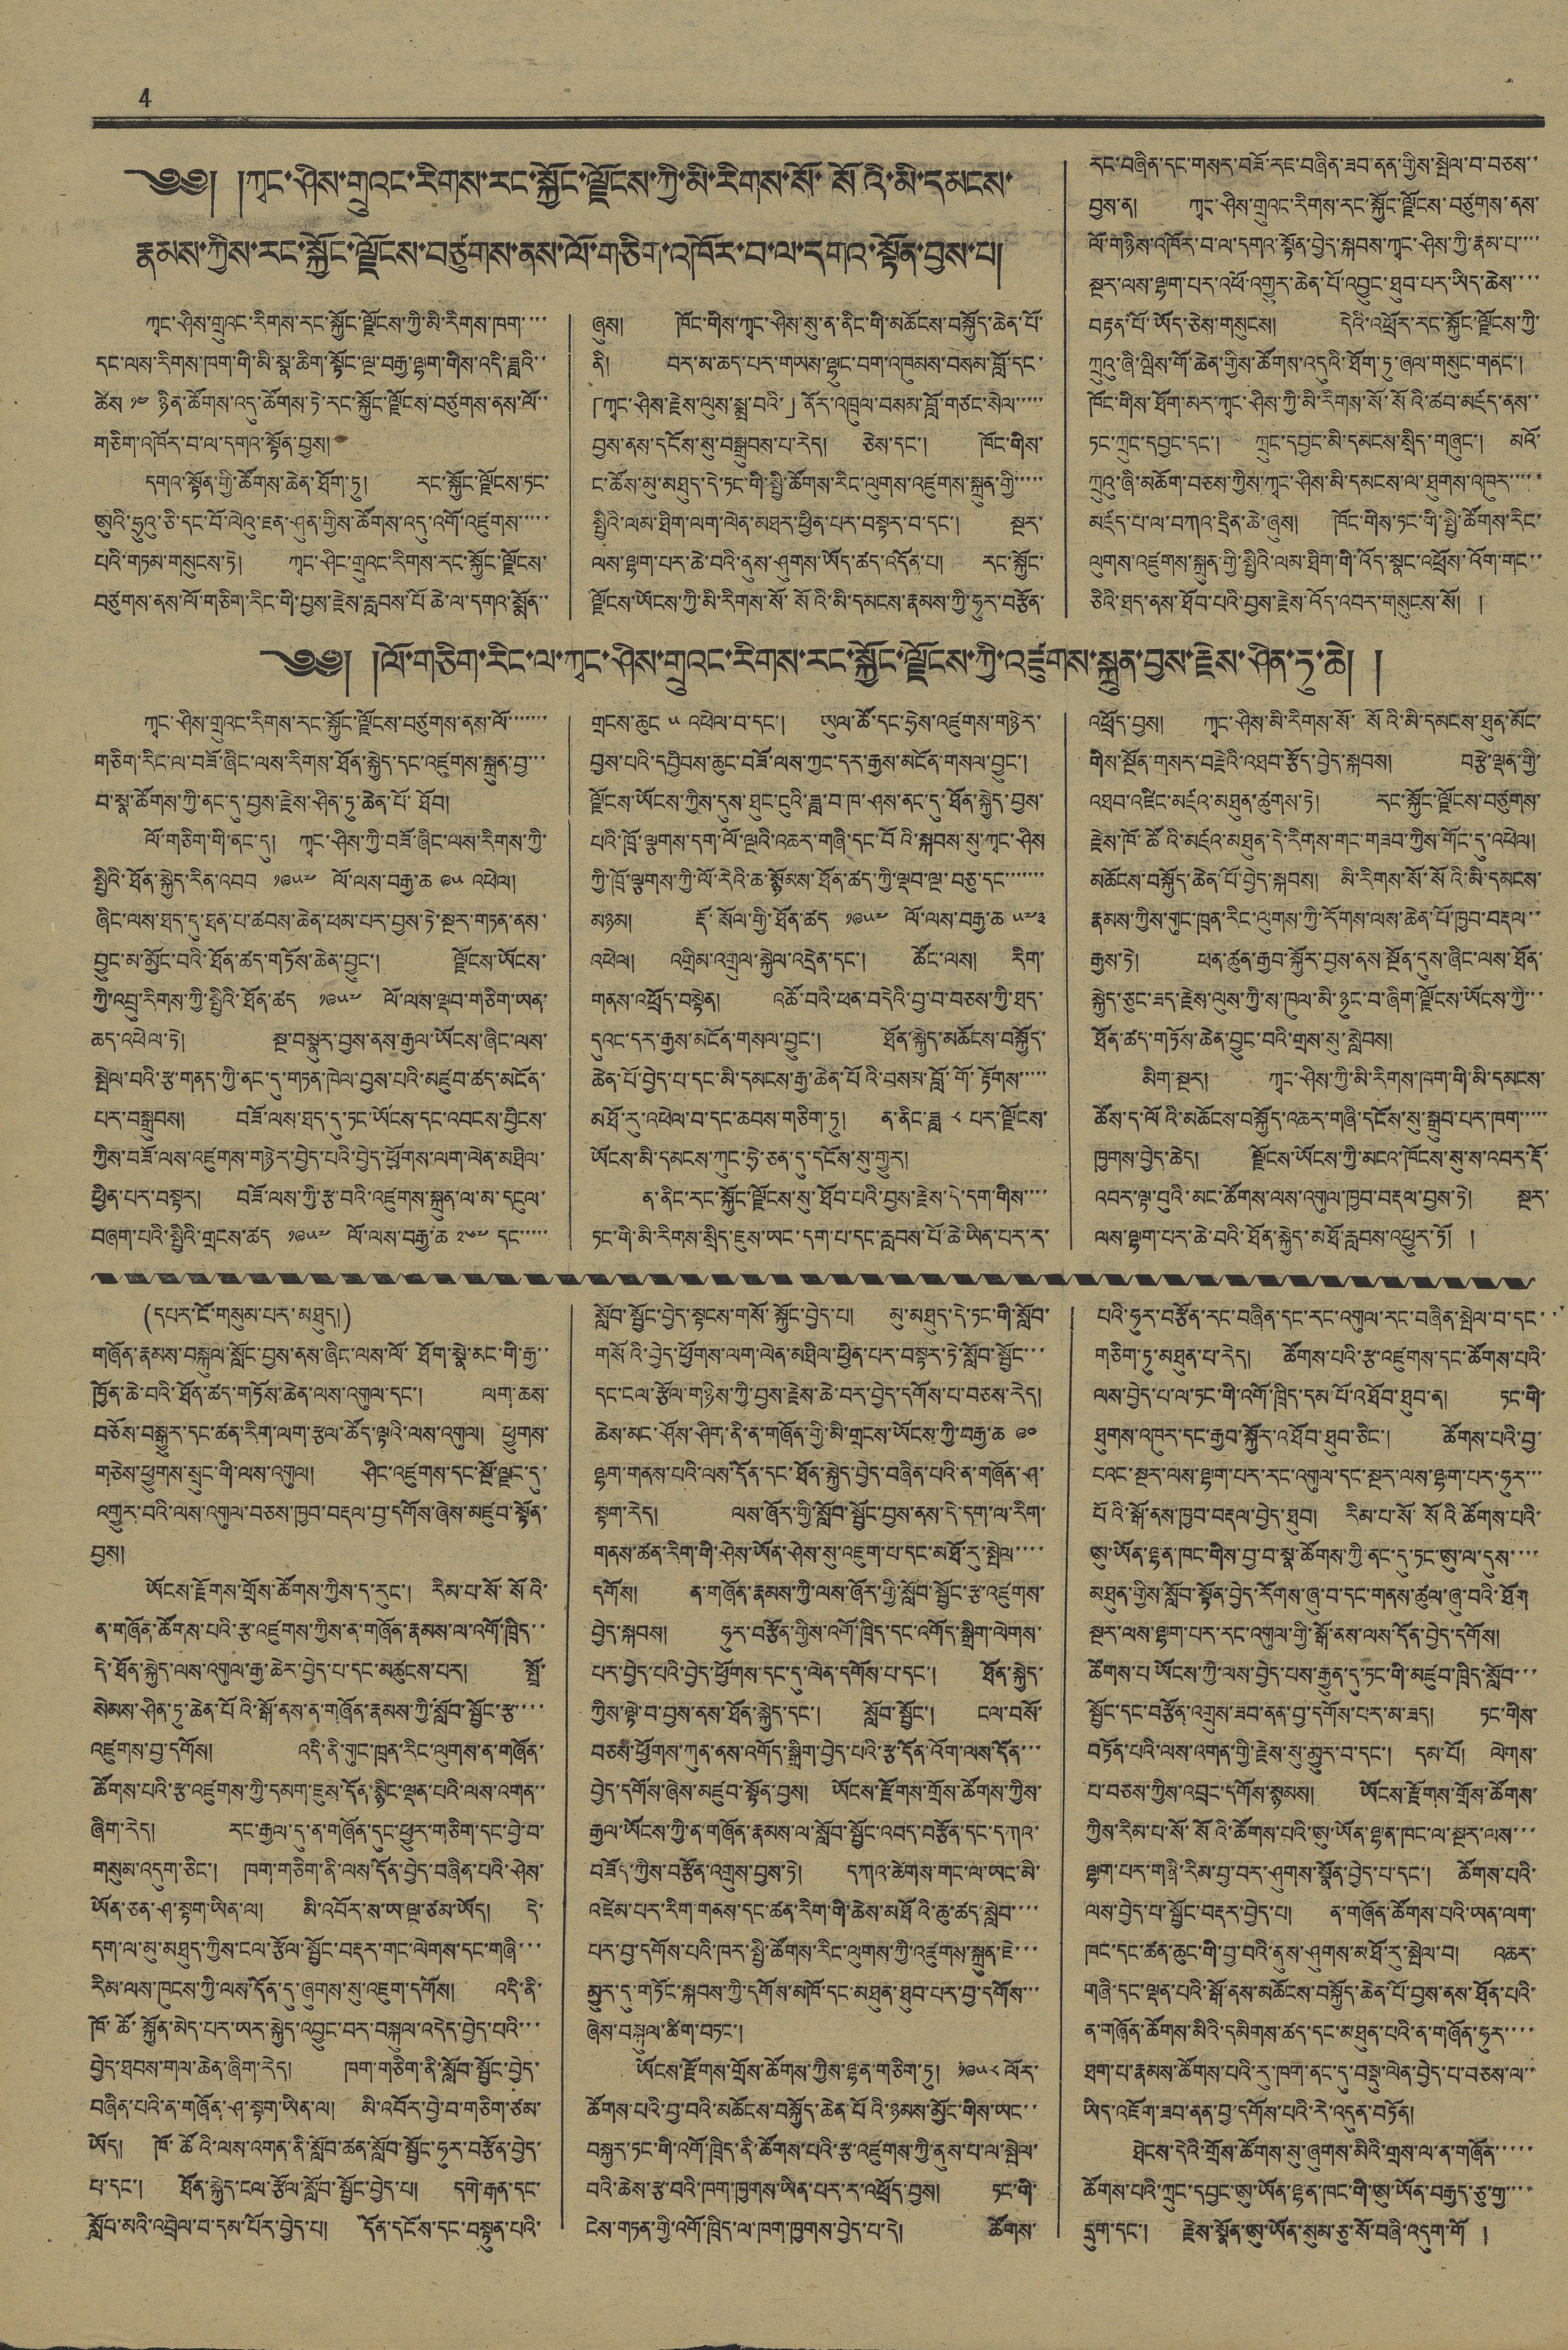4
༄༅། །ཀྭང་ཤིས་གྲུའང་རིགས་རང་སྐྱོང་ལྗོངས་ཀྱི་མི་རིགས་སོ་སོའི་མི་དམངས་
རྣམས་ཀྱིས་རང་སྐྱོང་ལྗོངས་བཙུགས་ནས་ལོ་གཅིག་འཁོར་བ་ལ་དགའ་སྟོན་བྱས་པ།
ཀྭང་ཤིས་གྲུའང་རིགས་རང་སྐྱོང་ལྗོངས་ཀྱི་མི་རིགས་ཁག་་་་
དང་ལས་རིགས་ཁག་གི་མི་སྣ་ཆིག་སྟོང་ལྔ་བརྒྱ་ལྷག་གིས་འདི་ཟླའི་་
ཚེས ༡༤ ཉིན་ཚོགས་འདུ་ཚོགས་ཏེ་རང་སྐྱོང་ལྗོངས་བཙུགས་ནས་ལོ་་
གཅིག་འཁོར་བ་ལ་དགའ་སྟོན་བྱས།
དགའ་སྟོན་གྱི་ཚོགས་ཆེན་ཐོག་ཏུ། རང་སྐྱོང་ལྗོངས་ཏང་
ཨུའི་ཧྲུའུ་ཅི་དང་བོ་ལེའུ་ཇན་ཤུན་གྱིས་ཚོགས་འདུ་འགོ་འཛུགས་་་་་
པའི་གཏམ་གསུངས་ཏེ། ཀྭང་ཤིང་ཀྲུའང་རིགས་རང་སྐྱོང་ལྗོངས་
བཙུགས་ནས་ལོ་གཅིག་རིང་གི་བྱས་རྗེས་རླབས་པོ་ཆེ་ལ་དགའ་སྨོན་་
ཞུས། ཁོང་གིས་ཀྭང་ཤིས་སུ་ན་ནིང་གི་མཆོངས་བསྐྱོད་ཆེན་པོ་
ནི། བར་མ་ཆད་པར་གཡས་ལྷུང་བག་འཁུམས་བསམ་བློ་དང་
「ཀྭང་ཤིས་རྗེས་ལུས་སྨྲ་བའི་」ནོར་འཁྲུལ་བསམ་བློ་གཙང་སེལ་་་་་
བྱས་ནས་དངོས་སུ་བསྒྲུབས་པ་རེད། ཅེས་དང་། ཁོང་གིས་
ང་ཚོས་མུ་མཐུད་དེ་ཏང་གི་སྤྱི་ཚོགས་རིང་ལུགས་འཛུགས་སྐྲུན་གྱི་་་་་
སྤྱིའི་ལམ་ཐིག་ལག་ལེན་མཐར་ཕྱིན་པར་བསྟར་བ་དང་། སྔར་
ལས་ལྷག་པར་ཆེ་བའི་ནུས་ཤུགས་ཡོད་ཚད་འདོན་པ། རང་སྐྱོང་
ལྗོངས་ཡོངས་ཀྱི་མི་རིགས་སོ་སོའི་མི་དམངས་རྣམས་ཀྱི་ཧུར་བརྩོན་
རང་བཞིན་དང་གསར་བཟོ་རང་བཞིན་ཟབ་ནན་གྱིས་སྤེལ་བ་བཅས་་
བྱས་ན། ཀྭང་ཤིས་གྲུའང་རིགས་རང་སྐྱོང་ལྗོངས་བཙུགས་ནས་
ལོ་གཉིས་འཁོར་བ་ལ་དགའ་སྟོན་བྱེད་སྐབས་ཀྭང་ཤིས་ཀྱི་རྣམ་པ་་་་
སྔར་ལས་ལྷག་པར་འཕོ་འགྱུར་ཆེན་པོ་འབྱུང་ཐུབ་པར་ཡིད་ཆེས་་་་
བརྟན་པོ་ཡོད་ཅེས་གསུངས། དེའི་འཕྲོར་རང་སྐྱོང་ལྗོངས་ཀྱི་
ཀྲུའུ་ཞི་ཝིས་གོ་ཆེན་གྱིས་ཚོགས་འདུའི་ཐོག་ཏུ་ཞལ་གསུང་གནང་།
ཁོང་གིས་ཐོག་མར་ཀྭང་ཤིས་ཀྱི་མི་རིགས་སོ་སོའི་ཚབ་མཛད་ནས་་
ཏང་ཀྲུང་དབྱང་དང་། ཀྲུང་དབྱང་མི་དམངས་སྲིད་གཞུང་། མའོ་
ཀྲུའུ་ཞི་མཆོག་བཅས་ཀྱིས་ཀྭང་ཤིས་མི་དམངས་ལ་ཐུགས་འཁུར་་་་་
མཛད་པ་ལ་བཀའ་དྲིན་ཆེ་ཞུས། ཁོང་གིས་ཏང་གི་སྤྱི་ཚོགས་རིང་
ལུགས་འཛུགས་སྐྲུན་ཀྱི་སྤྱིའི་ལམ་ཐིག་གི་འོད་སྣང་འཕྲོས་འོག་གང་་
ཅིའི་ཐད་ནས་ཐོབ་པའི་བྱས་རྗེས་འོད་འབར་གསུངས་སོ། །
༄༅། །ལོ་གཅིག་རིང་ལ་ཀྭང་ཤིས་གྲུའང་རིགས་རང་སྐྱོང་ལྗོངས་ཀྱི་འཛུགས་སྐྲུན་བྱས་རྗེས་ཤིན་ཏུ་ཆེ། །
ཀྭང་ཤིས་གྲུའང་རིགས་རང་སྐྱོང་ལྗོངས་བཙུགས་ནས་ལོ་་་་་་་
གཅིག་རིང་ལ་བཟོ་ཞིང་ལས་རིགས་ཐོན་སྐྱེད་དང་འཛུགས་སྐྲུན་བྱ་་་
བ་སྣ་ཚོགས་ཀྱི་ནང་དུ་བྱས་རྗེས་ཤིན་ཏུ་ཆེན་པོ་ཐོབ།
ལོ་གཅིག་གི་ནང་དུ། ཀྭང་ཤིས་ཀྱི་བཟོ་ཞིང་ལས་རིགས་ཀྱི་
སྤྱིའི་ཐོན་སྐྱེད་རིན་འབབ ༡༩༥༧ ལོ་ལས་བརྒྱ་ཆ ༩༥ འཕེལ།
ཞིང་ལས་ཐད་དུ་ཐན་པ་ཚབས་ཆེན་ཕམ་པར་བྱས་ཏེ་སྔར་གཏན་ནས་
བྱུང་མ་མྱོང་བའི་ཐོན་ཚད་གཏོས་ཆེན་བྱུང་། ལྗོངས་ཡོངས་
ཀྱི་འབྲུ་རིགས་ཀྱི་སྤྱིའི་ཐོན་ཚད ༡༩༥༧ ལོ་ལས་ལྡབ་གཅིག་ཡན་
ཆད་འཕེལ་ཏེ། སྔ་བསྣུར་བྱས་ནས་རྒྱལ་ཡོངས་ཞིང་ལས་
སྤེལ་བའི་རྩ་གནད་ཀྱི་ནང་དུ་གཏན་ཁེལ་བྱས་པའི་མཛུབ་ཚད་མངོན་
པར་བསྒྲུབས། བཟོ་ལས་ཐད་དུ་ཏང་ཡོངས་དང་འབངས་བྱིངས་
ཀྱིས་བཟོ་ལས་འཛུགས་གཉེར་བྱེད་པའི་བྱེད་ཕྱོགས་ལག་ལེན་མཐིལ་
ཕྱིན་པར་བསྟར། བཟོ་ལས་ཀྱི་རྩ་བའི་འཛུགས་སྐྲུན་ལ་མ་དངུལ་
བཞག་པའི་སྤྱིའི་གྲངས་ཚད ༡༩༥༧ ལོ་ལས་བརྒྱ་ཆ ༢༦༧ དང་་་་་
གྲངས་ཆུང ༥ འཕེལ་བ་དང་། ཡུལ་ཚོ་དང་ཧྲེས་འཛུགས་གཉེར་
བྱས་པའི་དབྱིབས་ཆུང་བཟོ་ལས་ཀྱང་དར་རྒྱས་མངོན་གསལ་བྱུང་།
ལྗོངས་ཡོངས་ཀྱིས་དུས་ཐུང་ངུའི་ཟླ་བ་ཁ་ཤས་ནང་དུ་ཐོན་སྐྱེད་བྱས་
པའི་ཁྲོ་ལྕགས་དག་ལོ་ལྔའི་འཆར་གཞི་དང་བོའི་སྐབས་སུ་ཀྭང་ཤིས
ཀྱི་ཁྲོ་ལྕགས་ཀྱི་ལོ་རེའི་ཆ་སྙོམས་ཐོན་ཚད་ཀྱི་ལྡབ་ལྔ་བཅུ་དང་་་་་་་
མཉམ། རྡོ་སོལ་གྱི་ཐོན་ཚད ༡༩༥༧ ལོ་ལས་བརྒྱ་ཆ ༥༧༣
འཕེལ། འགྲིམ་འགྲུལ་སྐྱེལ་འདྲེན་དང་། ཚོང་ལས། རིག་
གནས་འཕྲོད་བསྟེན། འཚོ་བའི་ཕན་བདེའི་བྱ་བ་བཅས་ཀྱི་ཐད་
དུའང་དར་རྒྱས་མངོན་གསལ་བྱུང་། ཐོན་སྐྱེད་མཆོངས་བསྐྱོད་
ཆེན་པོ་བྱེད་པ་དང་མི་དམངས་རྒྱ་ཆེན་པོའི་བསམ་བློ་གོ་རྟོགས་་་་་
མཐོ་རུ་འཕེལ་བ་དང་ཆབས་གཅིག་ཏུ། ན་ནིང་ཟླ ༨ པར་ལྗོངས་
ཡོངས་མི་དམངས་ཀུང་ཧྲེ་ཅན་དུ་དངོས་སུ་གྱུར།
ན་ནིང་རང་སྐྱོང་ལྗོངས་སུ་ཐོབ་པའི་བྱས་རྗེས་དེ་དག་གིས་་་་
ཏང་གི་མི་རིགས་སྲིད་ཇུས་ཡང་དག་པ་དང་རླབས་པོ་ཆེ་ཡིན་པར་ར་
འཕྲོད་བྱས། ཀྭང་ཤིས་མི་རིགས་སོ་སོའི་མི་དམངས་ཐུན་མོང་
གིས་སྔོན་གསར་བརྗེའི་འཐབ་རྩོད་བྱེད་སྐབས། བརྩེ་ལྡན་གྱི་
འཐབ་འཛིང་མཛའ་མཐུན་ཚུགས་ཏེ། རང་སྐྱོང་ལྗོངས་བཙུགས་
རྗེས་ཁོ་ཚོའི་མཛའ་མཐུན་དེ་རིགས་གང་གཟབ་ཀྱིས་གོང་དུ་འཕེལ།
མཆོངས་བསྐྱོད་ཆེན་པོ་བྱེད་སྐབས། མི་རིགས་སོ་སོའི་མི་དམངས་
རྣམས་ཀྱིས་གུང་ཁྲན་རིང་ལུགས་ཀྱི་རོགས་ལས་ཆེན་པོ་ཁྱབ་བརྡལ་་
རྒྱས་ཏེ། ཕན་ཚུན་རྒྱབ་སྐྱོར་བྱས་ནས་སྔོན་དུས་ཞིང་ལས་ཐོན་
སྐྱེད་ཅུང་ཟད་རྗེས་ལུས་ཀྱི་ས་ཁུལ་མི་ཉུང་བ་ཞིག་ལྗོངས་ཡོངས་ཀྱི་་་
ཐོན་ཚད་གཏོས་ཆེན་བྱུང་བའི་གྲས་སུ་སླེབས།
མིག་སྔར། ཀྭང་ཤིས་ཀྱི་མི་རིགས་ཁག་གི་མི་དམངས་
ཚོས་ད་ལོའི་མཆོངས་བསྐྱོད་འཆར་གཞི་དངོས་སུ་སྒྲུབ་པར་ཁག་་་་་
ཁྱགས་བྱེད་ཆེད། ལྗོངས་ཡོངས་ཀྱི་མངའ་ཁོངས་སུ་ས་འབར་རྡོ་
འབར་ལྟ་བུའི་མང་ཚོགས་ལས་འགུལ་ཁྱབ་བརྡ་བྱས་ཏེ། སྔར་
ལས་ལྷག་པར་ཆེ་བའི་ཐོན་སྐྱེད་མཐོ་རླབས་འཕྱུར་ཏོ། །
(དཔར་ངོ་གསུམ་པར་མཐུད།)
གཞོན་རྣམས་བསྐུལ་སློང་བྱས་ནས་ཞིང་ལས་ལོ་ཐོག་སྣེ་མང་གི་རྒྱ་་
ཁྱོན་ཆེ་བའི་ཐོན་ཚད་གཏོས་ཆེན་ལས་འགུལ་དང་། ལག་ཆས་
བཅོས་བསྒྱུར་དང་ཚན་རིག་ལག་རྩལ་ཚོད་ལྟའི་ལས་འགུལ། ཕྱུགས་
གཅེས་ཕྱུགས་སྲུང་གི་ལས་འགུལ། ཤིང་འཛུགས་དང་སྔོ་ལྗང་དུ་
འགྱུར་བའི་ལས་འགུལ་བཅས་ཁྱབ་བརྡལ་བྱ་དགོས་ཞེས་མཛུབ་སྟོན་
བྱས།
ཡོངས་རྫོགས་གྲོས་ཚོགས་ཀྱིས་ད་རུང་། རིམ་པ་སོ་སོའི་
ན་གཞོན་ཚོགས་པའི་རྩ་འཛུགས་ཀྱིས་ན་གཞོན་རྣམས་ལ་འགོ་ཁྲིད་་
དེ་ཐོན་སྐྱེད་ལས་འགུལ་རྒྱ་ཆེར་བྱེད་པ་དང་མཚུངས་པར། སྤྲོ་
སེམས་ཤིན་ཏུ་ཆེན་པོའི་སྒོ་ནས་ན་གཞོན་རྣམས་ཀྱི་སློབ་སྦྱོང་རྩ་་་་
འཛུགས་བྱ་དགོས། འདི་ནི་གུང་ཁྲན་རིང་ལུགས་ན་གཞོན་
ཚོགས་པའི་རྩ་འཛུགས་ཀྱི་དམག་ཇུས་དོན་སྙིང་ལྡན་པའི་ལས་འགན་་
ཞིག་རེད། རང་རྒྱལ་དུ་ན་གཞོན་དུང་ཕྱུར་གཅིག་དང་བྱེ་བ་
གསུམ་འདུག་ཅིང་། ཁག་གཅིག་ནི་ལས་དོན་བྱེད་བཞིན་པའི་ཤེས་
ཡོན་ཅན་ཤ་སྟག་ཡིན་ལ། མི་འབོར་ས་ཡ་ལྔ་ཙམ་ཡོད། དེ་
དག་ལ་མུ་མཐུད་ཀྱིས་ངལ་རྩོལ་སྦྱོང་བརྡར་གང་ལེགས་དང་གཞི་་་
རིམ་ལས་ཁུངས་ཀྱི་ལས་དོན་དུ་ཞུགས་སུ་འཇུག་དགོས། འདི་ནི་
ཁོ་ཚོ་སྐྱོན་མེད་པར་ཡར་སྐྱེད་འབྱུང་བར་བསྐུལ་འདེད་བྱེད་པའི་་་
བྱེད་ཐབས་གལ་ཆེན་ཞིག་རེད། ཁག་གཅིག་ནི་སློབ་སྦྱོང་བྱེད་
བཞིན་པའི་ན་གཞོན་ཤ་སྟག་ཡིན་ལ། མི་འབོར་བྱེ་བ་གཅིག་ཙམ་
ཡོད། ཁོ་ཚོའི་ལས་འགན་ནི་སློབ་ཚན་སློབ་སྦྱོང་ཧུར་བརྩོན་བྱེད་
པ་དང་། ཐོན་སྐྱེད་ངལ་རྩོལ་སློབ་སྦྱོང་བྱེད་པ། དགེ་རྒན་དང་
སློབ་མའི་འབྲེལ་བ་དམ་པོར་བྱེད་པ། དོན་དངོས་དང་བསྟུན་པའི་
སློབ་སྦྱོང་བྱེད་སྟངས་གསོ་སྐྱོང་བྱེད་པ། མུ་མཐུད་དེ་ཏང་གི་སློབ་
གསོའི་བྱེད་ཕྱོགས་ལག་ལེན་མཐིལ་ཕྱིན་པར་བསྟར་ཏེ་སློབ་སྦྱོང་་་
དང་ངལ་རྩོལ་གཉིས་ཀྱི་བྱས་རྗེས་ཆེ་བར་བྱེད་དགོས་པ་བཅས་རེད།
ཆེས་མང་ཤོས་ཤིག་ནི་ན་གཞོན་གྱི་མི་གྲངས་ཡོངས་ཀྱི་བརྒྱ་ཆ ༩༠
ལྷག་གནས་པའི་ལས་དོན་དང་ཐོན་སྐྱེད་བྱེད་བཞིན་པའི་ན་གཞོན་ཤ་
སྟག་རེད། ལས་ཞོར་གྱི་སློབ་སྦྱོང་བྱས་ནས་དེ་དག་ལ་རིག་
གནས་ཚན་རིག་གི་ཤེས་ཡོན་ཤེས་སུ་འཇུག་པ་དང་མཐོ་རུ་སྤེལ་་་་
དགོས། ན་གཞོན་རྣམས་ཀྱི་ལས་ཞོར་གྱི་སློབ་སྦྱོང་རྩ་འཛུགས་
བྱེད་སྐབས། ཧུར་བརྩོན་གྱིས་འགོ་ཁྲིད་དང་འགོད་སྒྲིག་ལེགས་
པར་བྱེད་པའི་བྱེད་ཕྱོགས་དང་དུ་ལེན་དགོས་པ་དང་། ཐོན་སྐྱེད་
ཀྱིས་ལྟེ་བ་བྱས་ནས་ཐོན་སྐྱེད་དང་། སློབ་སྦྱོང་། ངལ་བསོ་
བཅས་ཕྱོགས་ཀུན་ནས་འགོད་སྒྲིག་བྱེད་པའི་རྩ་དོན་འོག་ལས་དོན་་་
བྱེད་དགོས་ཞེས་མཛུབ་སྟོན་བྱས། ཡོངས་རྫོགས་གྲོས་ཚོགས་ཀྱིས་
རྒྱལ་ཡོངས་ཀྱི་ན་གཞོན་རྣམས་ལ་སློབ་སྦྱོངས་འབད་བརྩོན་དང་དཀའ་
བཟོད་ཀྱིས་བརྩོན་འགྲུས་བྱས་ཏེ། དཀའ་ཚེགས་གང་ལ་ཡང་མི་
འཛེམ་པར་རིག་གནས་དང་ཚན་རིག་གི་ཆེས་མཐོའི་ཆུ་ཚད་སླེབ་་་་
པར་བྱ་དགོས་པའི་ཁར་སྤྱི་ཚོགས་རིང་ལུགས་ཀྱི་འཛུགས་སྐྲུན་ཇེ་་་
མྱུར་དུ་གཏོང་སྐབས་ཀྱི་དགོས་མཁོ་དང་མཐུན་ཐུབ་པར་བྱ་དགོས་་་
ཞེས་བསྐུལ་ཚིག་བཏང་།
ཡོངས་རྫོགས་གྲོས་ཚོགས་ཀྱིས་ལྷན་གཅིག་ཏུ། ༡༩༥༨ ལོར་
ཚོགས་པའི་བྱ་བའི་མཆོངས་བསྐྱོད་ཆེན་པོའི་ཉམས་མྱོང་གིས་ཡང་་
བསྐྱར་ཏང་གི་འགོ་ཁྲིད་ནི་ཚོགས་པའི་རྩ་འཛུགས་ཀྱི་ནུས་པ་ལ་སྤེལ་
བའི་ཆེས་རྩ་བའི་ཁག་ཁྱགས་ཡིན་པར་ར་འཕྲོད་བྱས། ཏང་གི་
ངེས་གཏན་གྱི་འགོ་ཁྲིད་ལ་ཁག་ཁྱགས་བྱེད་པ་དེ། ཚོགས་
པའི་ཧུར་བརྩོན་རང་བཞིན་དང་རང་འགུལ་རང་བཞིན་སྤེལ་བ་དང་་
གཅིག་ཏུ་མཐུན་པ་རེད། ཚོགས་པའི་རྩ་འཛུགས་དང་ཚོགས་པའི་
ལས་བྱེད་པ་ལ་ཏང་གི་འགོ་ཁྲིད་དམ་པོ་འཐོབ་ཐུབ་ན། ཏང་གི་
ཐུགས་འཁུར་དང་རྒྱབ་སྐྱོར་འཐོབ་ཐུབ་ཅིང་། ཚོགས་པའི་བྱ་
ངའང་སྔར་ལས་ལྷག་པར་རང་འགུལ་དང་སྔར་ལས་ལྷག་པར་ཧུར་་་
པོའི་སྒོ་ནས་ཁྱབ་བརྡལ་བྱེད་ཐུབ། རིམ་པ་སོ་སོའི་ཚོགས་པའི་
ཨུ་ཡོན་ལྷན་ཁང་གིས་བྱ་བ་སྣ་ཚོགས་ཀྱི་ནང་དུ་ཏང་ཨུ་ལ་དུས་་་་
མཐུན་གྱིས་སློབ་སྟོན་བྱེད་རོགས་ཞུ་བ་དང་གནས་ཚུལ་ཞུ་བའི་ཐོག
སྔར་ལས་ལྷག་པར་རང་འགུལ་གྱི་སྒོ་ནས་ལས་དོན་བྱེད་དགོས།
ཚོགས་པ་ཡོངས་ཀྱི་ལས་བྱེད་པས་རྒྱུན་དུ་ཏང་གི་མཛུབ་ཁྲིད་སློབ་་་
སྦྱོང་དང་བརྩོན་འགྲུས་ཟབ་ནན་བྱ་དགོས་པར་མ་ཟད། ཏང་གིས་
བཏོན་པའི་ལས་འགན་གྱི་རྗེས་སུ་མྱུར་བ་དང་། དམ་པོ། ལེགས་
པ་བཅས་ཀྱིས་འབྲང་དགོས་སྙམས། ཡོངས་རྫོགས་གྲོས་ཚོགས་
ཀྱིས་རིམ་པ་སོ་སོའི་ཚོགས་པའི་ཨུ་ཡོན་ལྷན་ཁང་ལ་སྔར་ལས་་་
ལྷག་པར་གཞི་རིམ་བྱ་བར་ཤུགས་སྣོན་བྱེད་པ་དང་། ཚོགས་པའི་
ལས་བྱེད་པ་སྦྱོང་བརྡར་བྱེད་པ། ན་གཞོན་ཚོགས་པའི་ཡན་ལག་
ཁང་དང་ཚན་ཆུང་གི་བྱ་བའི་ནུས་ཤུགས་མཐོ་རུ་སྤེལ་བ། འཆར་
གཞི་དང་ལྡན་པའི་སྒོ་ནས་མཆོངས་བསྐྱོད་ཆེན་པོ་བྱས་ནས་ཐོན་པའི་
ན་གཞོན་ཚོགས་མིའི་དམིགས་ཚད་དང་མཐུན་པའི་ན་གཞོན་ཧུར་་་་
ཐག་པ་རྣམས་ཚོགས་པའི་རུ་ཁག་ནང་དུ་བསྡུ་ལེན་བྱེད་པ་བཅས་ལ་་
ཡིད་འཇོག་ཟབ་ནན་བྱ་དགོས་པའི་རེ་འདུན་བཏོན།
ཐེངས་དེའི་གྲོས་ཚོགས་སུ་ཞུགས་མིའི་གྲས་ལ་ན་གཞོན་་་་་
ཚོགས་པའི་ཀྲུང་དབྱང་ཨུ་ཡོན་ལྷན་ཁང་གི་ཨུ་ཡོན་བརྒྱད་ཅུ་གྱ་་་་
དྲུག་དང་། རྗེས་སྣོན་ཨུ་ཡོན་སུམ་ཅུ་སོ་བཞི་འདུག་གོ །
